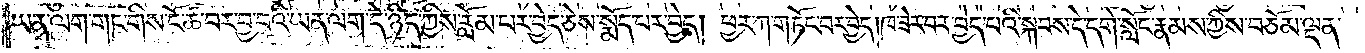ཡན་ལག་གང་གིས་ངོ་ཚ་བར་བྱ་བའི་ཡན་ལག་དེ་ཉིད་ཀྱིས་རློམ་པར་བྱེད་ཅེས་སྨོད་པར་བྱེད། ཕྱར་ཀ་གཏོང་བར་བྱེད། ཁ་ཟེར་བར་བྱེད་པའི་སྐབས་དེ་དགེ་སློང་རྣམས་ཀྱིས་བཅོམ་ལྡན་
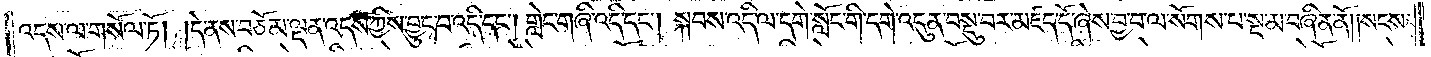འདས་ལ་གསོལ་ཏོ། །དེ་ནས་བཅོམ་ལྡན་འདས་ཀྱིས་བྱུང་བ་འདི་དང༌། གླེང་གཞི་འདི་དང༌། སྐབས་འདི་ལ་དགེ་སློང་གི་དགེ་འདུན་བསྡུ་བར་མཛད་དོ་ཞེས་བྱ་བ་ལ་སོགས་པ་སྔ་མ་བཞིན་ནོ༎སངས་
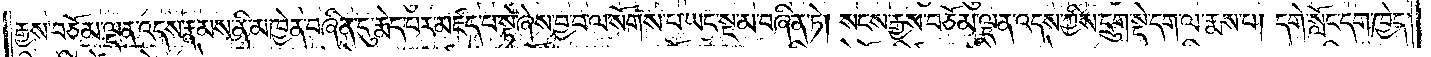རྒྱས་བཅོམ་ལྡན་འདས་རྣམས་ནི་མཁྱེན་བཞིན་དུ་རྨེད་པར་མཛད་པ་སྟེ་ཞེས་བྱ་བ་ལ་སོགས་པ་ཡང་སྔ་མ་བཞིན་ཏེ། སངས་རྒྱས་བཅོམ་ལྡན་འདས་ཀྱིས་དྲུག་སྡེ་དག་ལ་རྨས་པ། དགེ་སློང་དག་ཁྱེད་
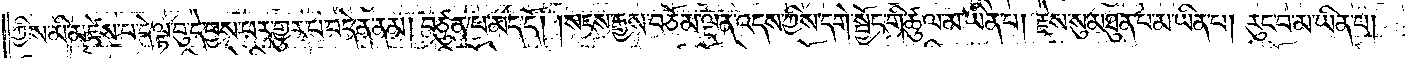ཀྱིས་མི་མཛེས་པ་དེ་ལྟ་བུ་དེ་བྱས་པར་གྱུར་བ་བདེན་ནམ། བཙུན་པ་མད་དོ། །སངས་རྒྱས་བཅོམ་ལྡན་འདས་ཀྱིས་དགེ་སྦྱོང་གི་ཚུལ་མ་ཡིན་པ། རྗེས་སུ་མཐུན་པ་མ་ཡིན་པ། རུང་བ་མ་ཡིན་པ།
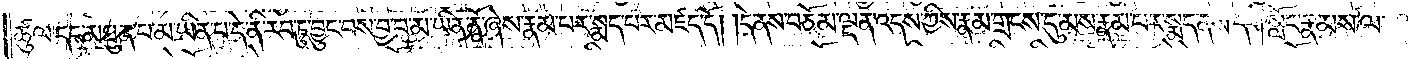ཚུལ་དང་མཐུན་པ་མ་ཡིན་པ་དེ་ནི་རབ་ཏུ་བྱུང་བས་བྱ་བ་མ་ཡིན་ནོ་ཞེས་རྣམ་པར་སྨད་པར་མཛད་དོ། །དེ་ནས་བཅོམ་ལྡན་འདས་ཀྱིས་རྣམ་གྲངས་དུ་མས་རྣམ་པར་སྨད་ནས་དགེ་སློང་རྣམས་ལ་
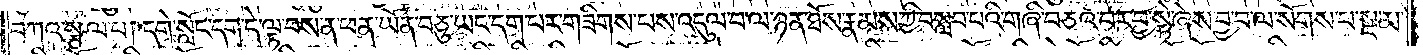བཀའ་སྩལ་པ། དགེ་སློང་དག་དེ་ལྟ་བས་ན་ཕན་ཡོན་བཅུ་ཡང་དག་པར་གཟིགས་པས་འདུལ་བ་ལ་ཉན་ཐོས་རྣམས་ཀྱི་བསླབ་པའི་གཞི་བཅའ་བར་བྱ་སྟེ་ཞེས་བྱ་བ་ལ་སོགས་པ་སྔ་མ་
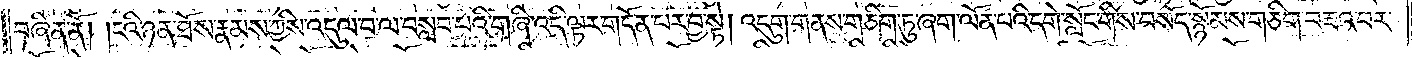བཞིན་ནོ། །ངའི་ཉན་ཐོས་རྣམས་ཀྱིས་འདུལ་བ་ལ་བསླབ་པའི་གཞི་འདི་ལྟར་གདོན་པར་བྱ་སྟེ། འདུག་གནས་གཅིག་ཏུ་ཞག་ལོན་པའི་དགེ་སློང་གིས་བསོད་སྙོམས་གཅིག་བཟའ་བར་
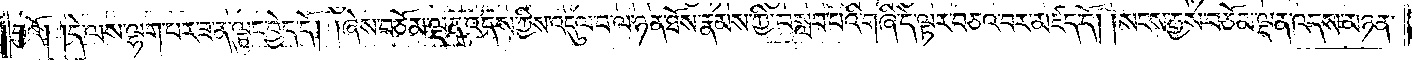བྱའོ། །དེ་ལས་ལྷག་པར་ཟ་ན་ལྟུང་བྱེད་དོ། །ཞེས་བཅོམ་ལྡན་འདས་ཀྱིས་འདུལ་བ་ལ་ཉན་ཐོས་རྣམས་ཀྱི་བསླབ་པའི་གཞི་དེ་ལྟར་བཅའ་བར་མཛད་དོ། །སངས་རྒྱས་བཅོམ་ལྡན་འདས་མཉན་
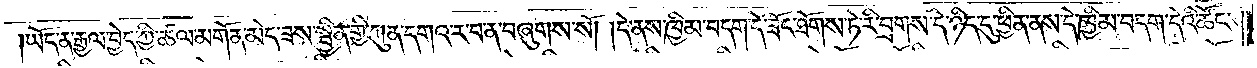ཡོད་ན་རྒྱལ་བྱེད་ཀྱི་ཚལ་མགོན་མེད་ཟས་སྦྱིན་གྱི་ཀུན་དགའ་ར་བ་ན་བཞུགས་སོ། །དེ་ནས་ཁྱིམ་བདག་དེ་ཟོང་ཐོགས་ཏེ་རི་བྲགས་དེ་ཉིད་དུ་ཕྱིན་ནས་དེ་ཁྱིམ་བདག་དེའི་ཚོང་
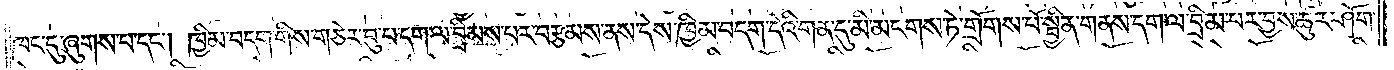ཁང་དུ་ཞུགས་པ་དང༌། ཁྱིམ་བདག་གིས་གཅེར་བུ་པ་དག་ལ་བྲིམས་པར་བརྩམས་ནས་དེས་ཁྱིམ་བདག་དེའི་གན་དུ་མི་མངགས་ཏེ་གྲོགས་པོ་སྦྱིན་གནས་དག་ལ་བྲིམ་པར་བྱས་ཚུར་ཤོག་
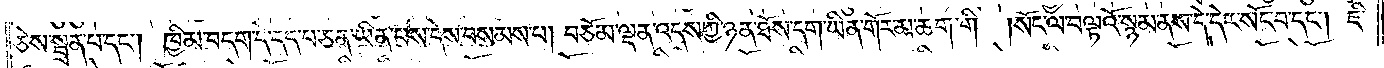ཅེས་སྦྲན་པ་དང༌། ཁྱིམ་བདག་དེ་དད་པ་ཅན་ཡིན་པས་དེས་བསམས་པ། བཅོམ་ལྡན་འདས་ཀྱི་ཉན་ཐོས་དག་ཡིན་གོར་མ་ཆག་གི །སོང་ལ་བལྟའོ་སྙམ་ནས་དེ་དེར་སོང་བ་དང༌། ཇི་
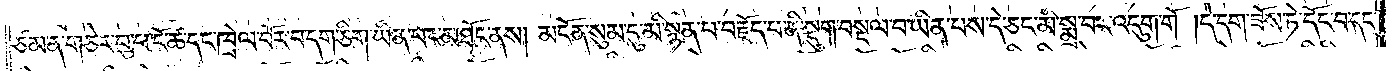ཙམ་ན་གཅེར་བུ་པ་ངོ་ཚ་དང་ཁྲེལ་བོར་བ་དག་ཅིག་ཡིན་པར་མཐོང་ནས། མངོན་སུམ་དུ་མི་སྙན་པ་བརྗོད་པ་ནི་སྡུག་བསྔལ་བ་ཡིན་པས་དེ་ཅང་མི་སྨྲ་བར་འདུག་གོ །དེ་དག་ཟོས་ཏེ་དོང་བ་དང་
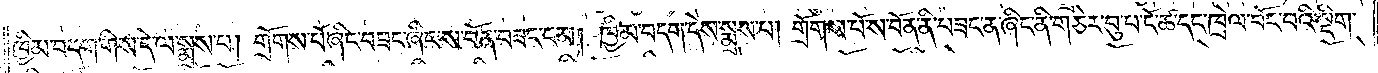ཁྱིམ་བདག་གིས་དེ་ལ་སྨྲས་པ། གྲོགས་པོ་ཞིང་བཟང་ཞིང་ས་བོན་བཟང་ངམ། ཁྱིམ་བདག་དེས་སྨྲས་པ། གྲོགས་པོ་ས་བོན་ནི་བཟང་ན་ཞིང་ནི་གཅེར་བུ་པ་ངོ་ཚ་དང་ཁྲེལ་བོར་བའི་སྡིག་
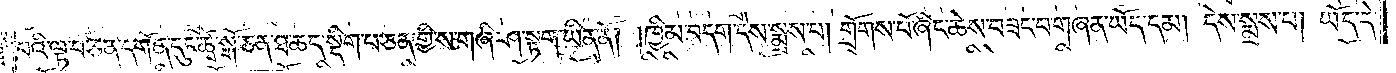པའི་ལྟ་བ་ཅན་དགོན་དུང་ཚྭ་སྒོ་ཅན་ཐ་ཆད་སྡིག་པ་ཅན་གྱི་ས་གཞི་ཤ་སྟག་ཡིན་ནོ། །ཁྱིམ་བདག་དེས་སྨྲས་པ། གྲོགས་པོ་ཞིང་ཆེས་བཟང་བ་གཞན་ཡོད་དམ། དེས་སྨྲས་པ། ཡོད་དེ་
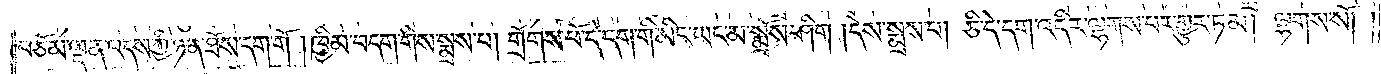བཅོམ་ལྡན་འདས་ཀྱི་ཉན་ཐོས་དག་གོ །ཁྱིམ་བདག་གིས་སྨྲས་པ། གྲོགས་པོ་དེ་དག་གི་མིང་ཡང་མ་སྨྲོས་ཤིག །དེས་སྨྲས་པ། ཅི་དེ་དག་འདིར་ལྷགས་པར་གྱུར་ཏམ། ལྷགས་སོ། །
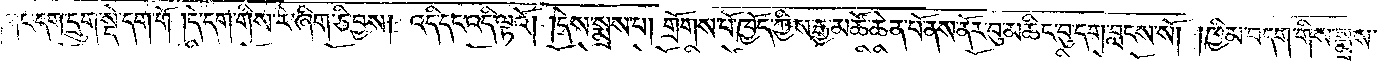གང་དག་དྲུག་སྡེ་དག་གོ །དེ་དག་གིས་རེ་ཞིག་ཅི་བྱས། འདི་དང་འདི་ལྟའོ། །དེས་སྨྲས་པ། གྲོགས་པོ་ཁྱོད་ཀྱིས་རྒྱ་མཚོ་ཆེན་པོ་ནས་ནོར་བུ་མཆིང་བུ་དག་བླངས་སོ། །ཁྱིམ་བདག་གིས་སྨྲས་
